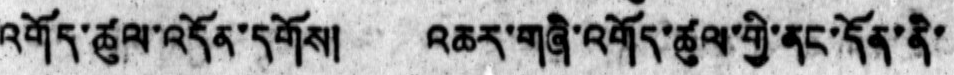འགོད་ཚུལ་འདོན་དགོས། འཆར་གཞི་འགོད་ཚུལ་གྱི་ནང་དོན་ནི་
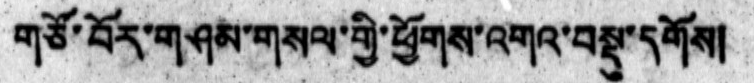གཙོ་བོར་གཤམ་གསལ་གྱི་ཕྱོགས་འགའ་བསྡུ་དགོས།
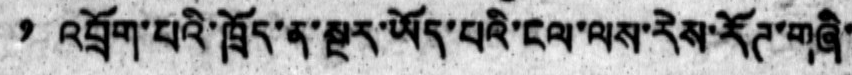༡ འབྲོག་པའི་ཁྲོད་ན་སྔར་ཡོད་པའི་ངལ་ལས་རེས་རོཊ་གཞི་
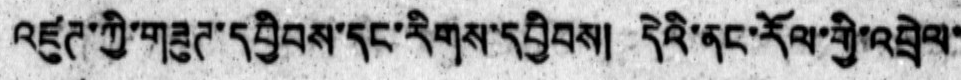འཛུཊ་ཀྱི་གཟུཊ་དབྱིབས་དང་རིགས་དབྱིབས། དེའི་ནང་རོལ་གྱི་འབྲེལ་
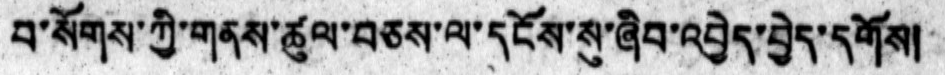བ་སོགས་ཀྱི་གནས་ཚུལ་བཅས་ལ་དངོས་སུ་ཞིབ་འབྱེད་བྱེད་དགོས།
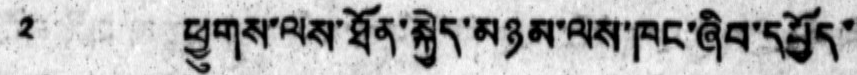༢ ཕྱུགས་ལས་ཐོན་སྐྱེད་མཉམ་ལས་ཁང་ཞིབ་དཔྱོད་
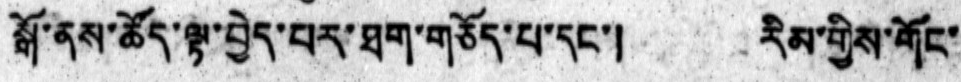སྒོ་ནས་ཚོད་ལྟ་བྱེད་པར་ཐག་གཅོད་པ་དང་། རིམ་གྱིས་གོང་
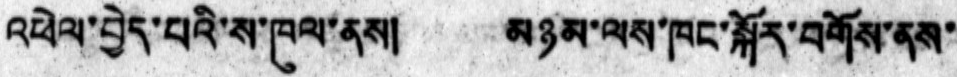འཕེལ་བྱེད་པའི་ས་ཁུལ་ནས།  མཉམ་ལས་ཁང་སྐོར་བགོས་ནས་
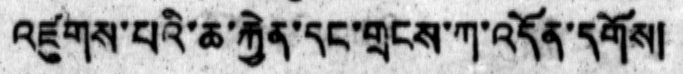འཛུགས་པའི་ཆ་རྐྱེན་དང་གྲངས་ཀ་འདོན་དགོས།
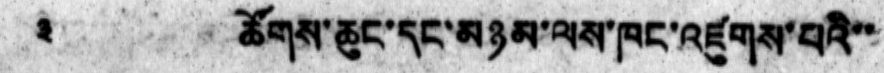༣ ཚོགས་ཆུང་དང་མཉམ་ལས་ཁང་འཛུགས་པའི་་
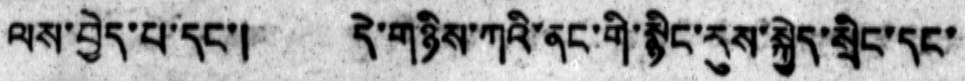ལས་བྱེད་པ་དང་། དེ་གཉིས་ཀའི་ནང་གི་སྙིང་རུས་སྐྱེད་སྲིང་དང་
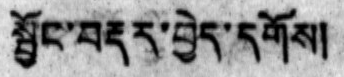སྦྱོང་བརྡར་བྱེད་དགོས།
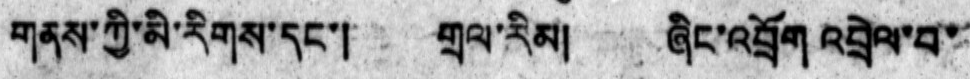གནས་ཀྱི་མི་རིགས་དང་། གྲལ་རིམ། ཞིང་འབྲོག འབྲེལ་བ་
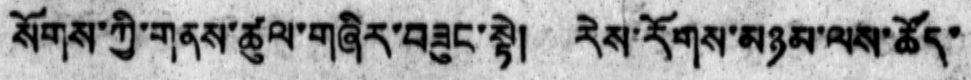སོགས་ཀྱི་གནས་ཚུལ་གཞིར་བཟུང་སྟེ། རེས་རོགས་མཉམ་ལས་ཚོད་
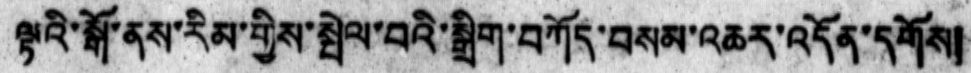ལྟའི་སྒོ་ནས་རིམ་གྱིས་སྤེལ་བའི་སྒྲིག་བཀོད་བསམ་འཆར་འདོན་དགོས།
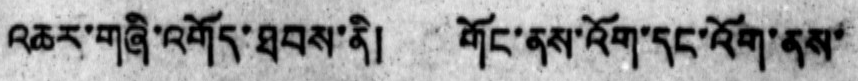འཆར་གཞི་འགོད་ཐབས་ནི། གོང་ནས་འོག་དང་འོག་ནས་
